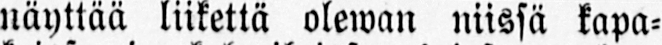näyttää liikettä olewan niissä kapa-
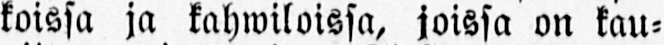koissa ja kahwiloissa, joissa on kau-
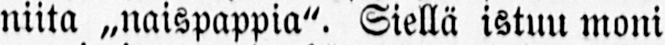niita ˶naispappia". Siellä istuu moni
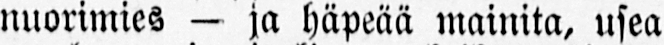nuorimies — ja häpeää mainita, usea
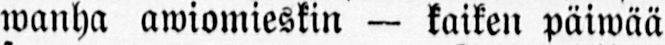wanha awiomieskin — kaiken päiwää
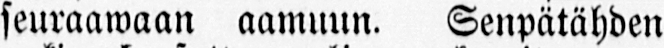seuraawaan aamuun. Senpätähden
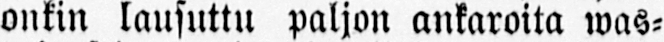onkin lausuttu paljon ankaroita was-
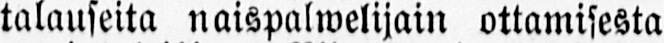talauseita naispalwelijain ottamisesta
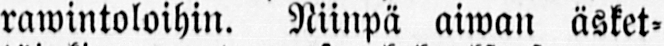rawintoloihin. Niinpä aiwan äsket-
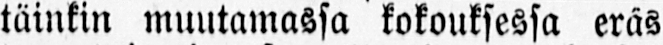täinkin muutamassa kokouksessa eräs
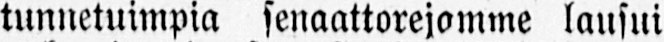tunnetuimpia senaattorejamme lausui
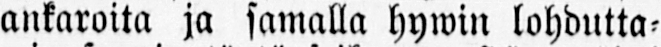ankaroita ja samalla hywin lohdutta-
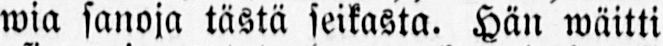wia sanoja tästä seikasta. Hän wäitti
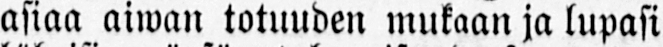asiaa aiwan totuuden mukaan ja lupasi
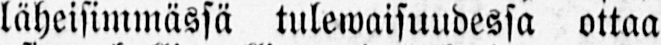läheisimmässä tulewaisuudessa ottaa
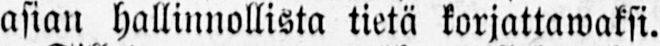asian hallinnollista tietä korjattawaksi.
